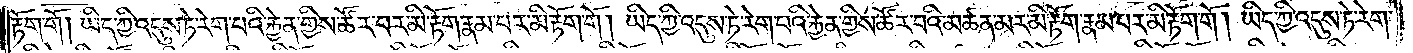རྟོག་གོ། ཡིད་ཀྱི་འདུས་ཏེ་རེག་པའི་རྐྱེན་གྱིས་ཚོར་བར་མི་རྟོག་རྣམ་པར་མི་རྟོག་གོ །ཡིད་ཀྱི་འདུས་ཏེ་རེག་པའི་རྐྱེན་གྱིས་ཚོར་བའི་མཚན་མར་མི་རྟོག་རྣམ་པར་མི་རྟོག་གོ །ཡིད་ཀྱི་འདུས་ཏེ་རེག་
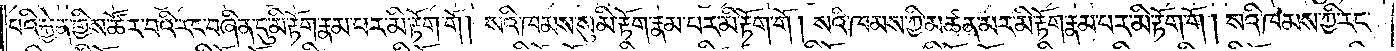པའི་རྐྱེན་གྱིས་ཚོར་བའི་རང་བཞིན་དུ་མི་རྟོག་རྣམ་པར་མི་རྟོག་གོ །སའི་ཁམས་སུ་མི་རྟོག་རྣམ་པར་མི་རྟོག་གོ །སའི་ཁམས་ཀྱི་མཚན་མར་མི་རྟོག་རྣམ་པར་མི་རྟོག་གོ །སའི་ཁམས་ཀྱི་རང་
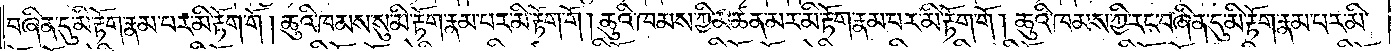བཞིན་དུ་མི་རྟོག་རྣམ་པར་མི་རྟོག་གོ །ཆུའི་ཁམས་སུ་མི་རྟོག་རྣམ་པར་མི་རྟོག་གོ །ཆུའི་ཁམས་ཀྱི་མཚན་མར་མི་རྟོག་རྣམ་པར་མི་རྟོག་གོ །ཆུའི་ཁམས་ཀྱི་རང་བཞིན་དུ་མི་རྟོག་རྣམ་པར་མི་
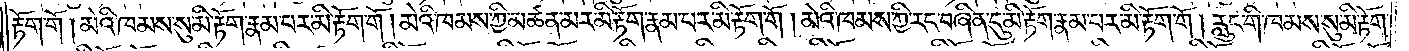རྟོག་གོ །མེའི་ཁམས་སུ་མི་རྟོག་རྣམ་པར་མི་རྟོག་གོ །མེའི་ཁམས་ཀྱི་མཚན་མར་མི་རྟོག་རྣམ་པར་མི་རྟོག་གོ །མེའི་ཁམས་ཀྱི་རང་བཞིན་དུ་མི་རྟོག་རྣམ་པར་མི་རྟོག་གོ །རླུང་གི་ཁམས་སུ་མི་རྟོག་
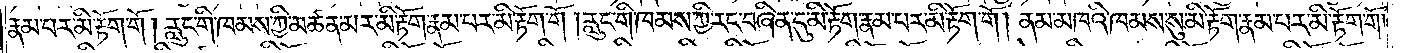རྣམ་པར་མི་རྟོག་གོ །རླུང་གི་ཁམས་ཀྱི་མཚན་མར་མི་རྟོག་རྣམ་པར་མི་རྟོག་གོ །རླུང་གི་ཁམས་ཀྱི་རང་བཞིན་དུ་མི་རྟོག་རྣམ་པར་མི་རྟོག་གོ །ནམ་མཁའི་ཁམས་སུ་མི་རྟོག་རྣམ་པར་མི་རྟོག་གོ།
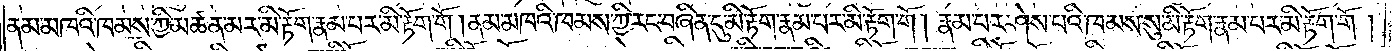ནམ་མཁའི་ཁམས་ཀྱི་མཚན་མར་མི་རྟོག་རྣམ་པར་མི་རྟོག་གོ །ནམ་མཁའི་ཁམས་ཀྱི་རང་བཞིན་དུ་མི་རྟོག་རྣམ་པར་མི་རྟོག་གོ །རྣམ་པར་ཤེས་པའི་ཁམས་སུ་མི་རྟོག་རྣམ་པར་མི་རྟོག་གོ།
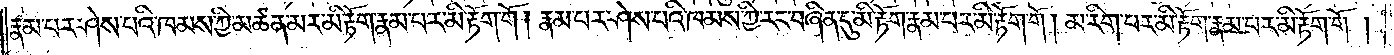རྣམ་པར་ཤེས་པའི་ཁམས་ཀྱི་མཚན་མར་མི་རྟོག་རྣམ་པར་མི་རྟོག་གོ །རྣམ་པར་ཤེས་པའི་ཁམས་ཀྱི་རང་བཞིན་དུ་མི་རྟོག་རྣམ་པར་མི་རྟོག་གོ །མ་རིག་པར་མི་རྟོག་རྣམ་པར་མི་རྟོག་གོ།
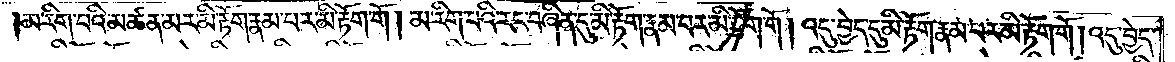མ་རིག་པའི་མཚན་མར་མི་རྟོག་རྣམ་པར་མི་རྟོག་གོ །མ་རིག་པའི་རང་བཞིན་དུ་མི་རྟོག་རྣམ་པར་མི་རྟོག་གོ །འདུ་བྱེད་དུ་མི་རྟོག་རྣམ་པར་མི་རྟོག་གོ །འདུ་བྱེད་
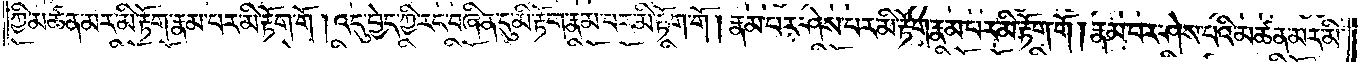ཀྱི་མཚན་མར་མི་རྟོག་རྣམ་པར་མི་རྟོག་གོ །འདུ་བྱེད་ཀྱི་རང་བཞིན་དུ་མི་རྟོག་རྣམ་པར་མི་རྟོག་གོ །རྣམ་པར་ཤེས་པར་མི་རྟོག་རྣམ་པར་མི་རྟོག་གོ །རྣམ་པར་ཤེས་པའི་མཚན་མར་མི་
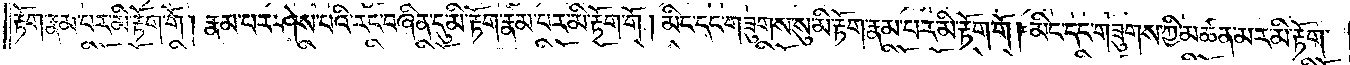རྟོག་རྣམ་པར་མི་རྟོག་གོ །རྣམ་པར་ཤེས་པའི་རང་བཞིན་དུ་མི་རྟོག་རྣམ་པར་མི་རྟོག་གོ །མིང་དང་གཟུགས་སུ་མི་རྟོག་རྣམ་པར་མི་རྟོག་གོ །མིང་དང་གཟུགས་ཀྱི་མཚན་མར་མི་རྟོག་
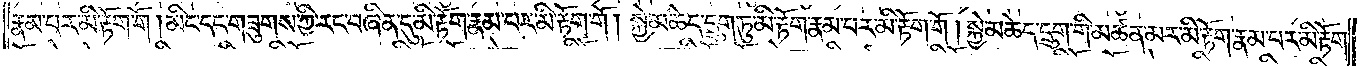རྣམ་པར་མི་རྟོག་གོ །མིང་དང་གཟུགས་ཀྱི་རང་བཞིན་དུ་མི་རྟོག་རྣམ་པར་མི་རྟོག་གོ །སྐྱེ་མཆེད་དྲུག་ཏུ་མི་རྟོག་རྣམ་པར་མི་རྟོག་གོ །སྐྱེ་མཆེད་དྲུག་གི་མཚན་མར་མི་རྟོག་རྣམ་པར་མི་རྟོག་
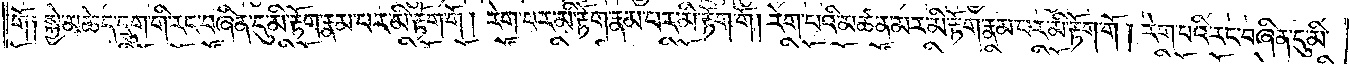གོ་༑སྐྱེ་མཆེད་དྲུག་གི་རང་བཞིན་དུ་མི་རྟོག་རྣམ་པར་མི་རྟོག་གོ །རེག་པར་མི་རྟོག་རྣམ་པར་མི་རྟོག་གོ །རེག་པའི་མཚན་མར་མི་རྟོག་རྣམ་པར་མི་རྟོག་གོ །རེག་པའི་རང་བཞིན་དུ་མི་
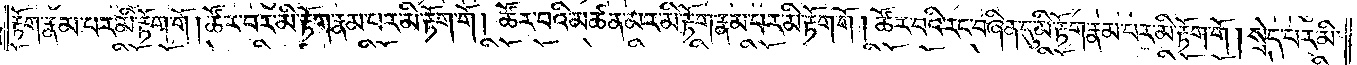རྟོག་རྣམ་པར་མི་རྟོག་གོ །ཚོར་བར་མི་རྟོག་རྣམ་པར་མི་རྟོག་གོ །ཚོར་བའི་མཚན་མར་མི་རྟོག་རྣམ་པར་མི་རྟོག་གོ །ཚོར་བའི་རང་བཞིན་དུ་མི་རྟོག་རྣམ་པར་མི་རྟོག་གོ །སྲེད་པར་མི་
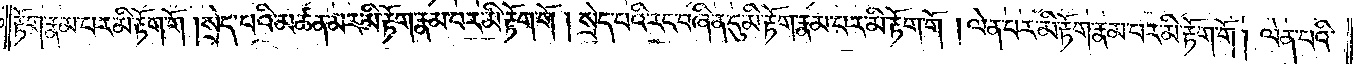རྟོག་རྣམ་པར་མི་རྟོག་གོ །སྲེད་པའི་མཚན་མར་མི་རྟོག་རྣམ་པར་མི་རྟོག་གོ །སྲེད་པའི་རང་བཞིན་དུ་མི་རྟོག་རྣམ་པར་མི་རྟོག་གོ །ལེན་པར་མི་རྟོག་རྣམ་པར་མི་རྟོག་གོ །ལེན་པའི་
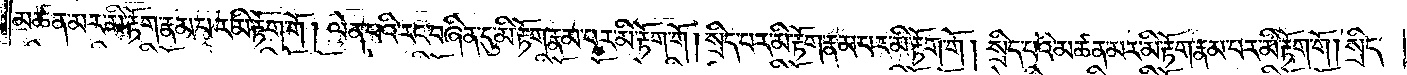མཚན་མར་མི་རྟོག་རྣམ་པར་མི་རྟོག་གོ །ལེན་པའི་རང་བཞིན་དུ་མི་རྟོག་རྣམ་པར་མི་རྟོག་གོ །སྲིད་པར་མི་རྟོག་རྣམ་པར་མི་རྟོག་གོ །སྲིད་པའི་མཚན་མར་མི་རྟོག་རྣམ་པར་མི་རྟོག་གོ །སྲིད་
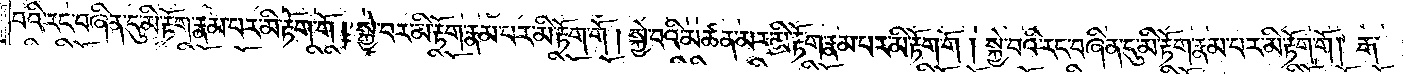པའི་རང་བཞིན་དུ་མི་རྟོག་རྣམ་པར་མི་རྟོག་གོ །སྐྱེ་བར་མི་རྟོག་རྣམ་པར་མི་རྟོག་གོ །སྐྱེ་བའི་མཚན་མར་མི་རྟོག་རྣམ་པར་མི་རྟོག་གོ །སྐྱེ་བའི་རང་བཞིན་དུ་མི་རྟོག་རྣམ་པར་མི་རྟོག་གོ །རྒ་
